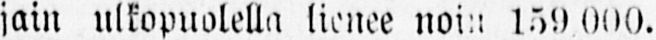jain ulkopuolella lienee 159,000.
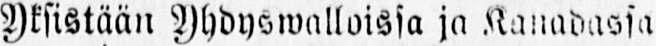Yksistään Yhdyswalloissa ja Kanadassa
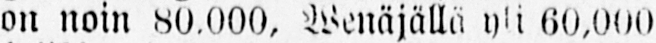on noin 80,000, Wenäjällä yli 60,000
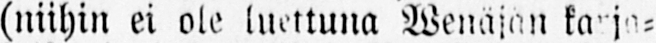(niihin ei ole luettuna Wenäjan karja-
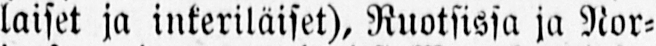laiset ja inkeriläiset), Ruotsissa ja Nor-
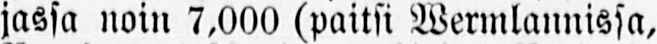jassa noin 7,000 (paitsi Wermlannissa,
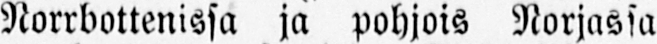Norrbottenissa ja pohjois Norjassa
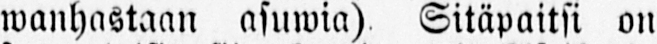wanhastann asuwia) Sitäpaitsi on
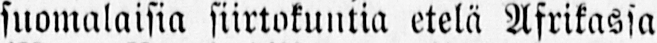suomalaisia siirtokuntia etelä Afrikassa
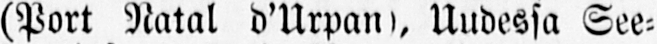(Port Natal d’Urpan), Uudessa See-
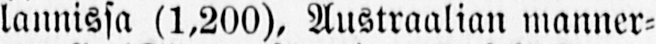lannissa (1,200), Austraalian manner-
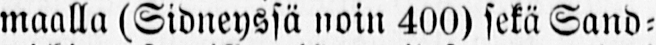maalla (Sidneyssä noin 400) sekä Sand-
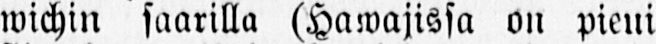wichin saarilla (Hawajissa on pieui
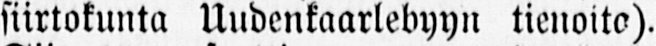siirtokunta Undenkaarlebyyn tienoita).
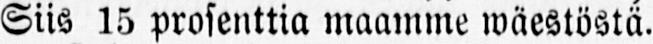Siis 15 prosenttia maamme wäestöstä.
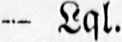- Lql.
